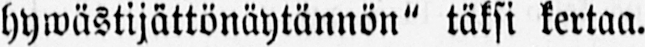hywästijättönäytännön" täksi kertaa.
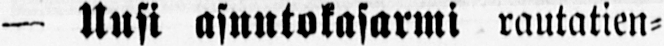— Uusi asuntokasarmi rautatien-
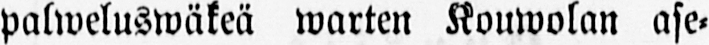palweluswäkeä warten Kouwolan ase-
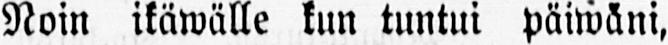Noin itäwälle kun tuntui päiwäni,
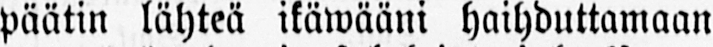päätin lähteä ikäwääni haihduttamaan
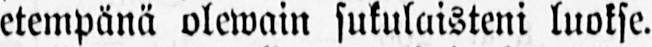etempänä olewain sukulaisteni luokse.
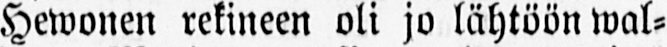Hewonen rekineen oli jo lähtöön wal-
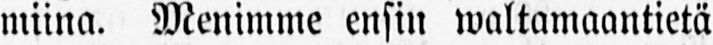miina. Menimme ensin waltamaantietä
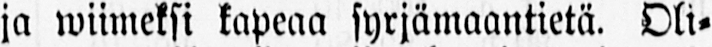ja wiimeksi kapeaa syrjämaantietä. Oli-
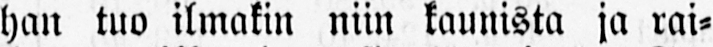han tuo ilmakin niin kaunista ja rai-
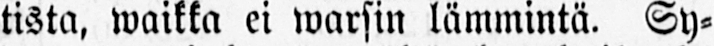tista, waikka ei warsin lämmintä. Sy-
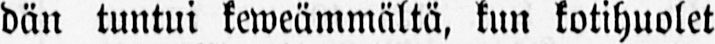dän tuntui keweämmältä, kun kotihuolet
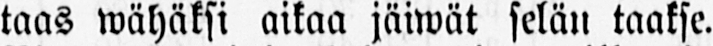taas wähäksi aikaa jäiwät selän taakse.
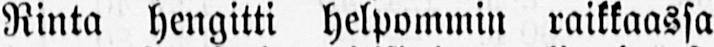Rinta hengitti helpommin raikkaassa
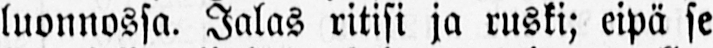luonnossa. Jalas ritisi ja ruski; eipä se
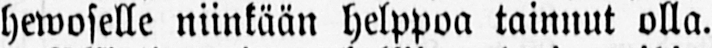hewoselle niinkään helppoa tainnut olla.
